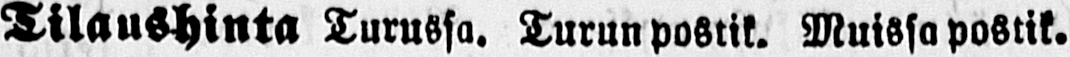Tilaushinta Turussa. Turun postik. Muissa postik.
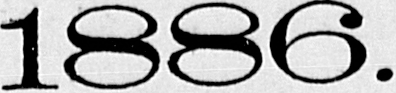1886.
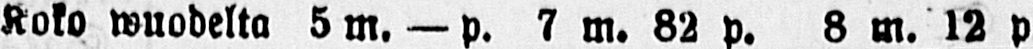Koko wuodelta 5 m. — p. 7 m. 82 p. 8 m. 12 p
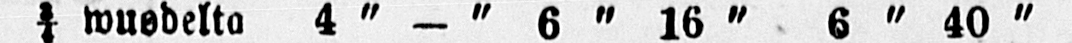¾ wuodelta 4 ˶ - ˶ 6 ˶ 16 ˶ 6 ˶ 40 ˶
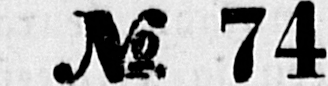No. 74.
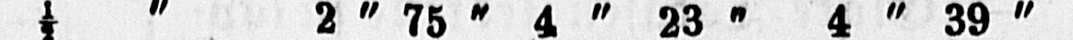½ ˶ 2 ˶ 75 ˶ 4 ˶ 23 ˶ 4 ˶ 39 ˶
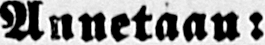Annetaan!
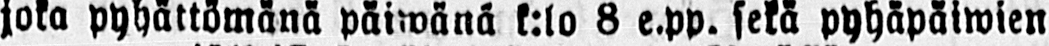joka pyhättömänä päiwänä k:lo 8 e.pp. sekä pyhäpäiwien
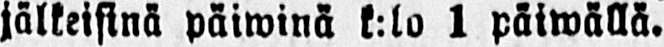jälkeisinä päiwinä k:lo 1 päiwällä.
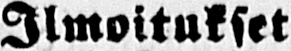Ilmoitukset
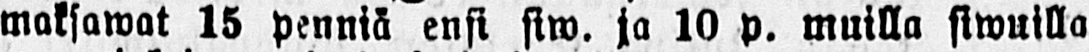maksawat 15 penniä ensi siw. ja 10 p. muilla siwuilla
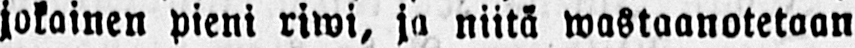jokainen pieni riwi, ja niitä wastaanotetaan
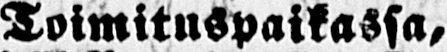Toimituspaikassa,
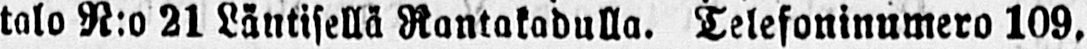talo N:o 21 Läntisellä Rantakadulla. Telefoninumero 109.
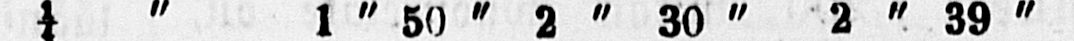¼ ˶ l ˶ 50 ˶ 2 ˶ 30 ˶ 2 ˶ 39 ˶
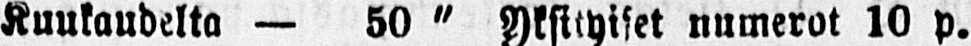Kuukaudelta — 50 " numerot 10 p.
